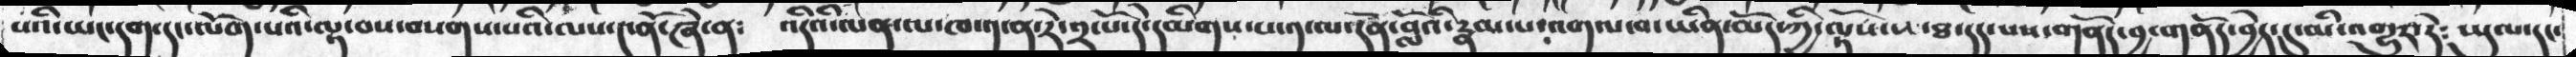པའི་ཡང་དག་དང་ལོག་པའི་ལྟ་བས་བསགས་པའི་ལས་༤ནོ་ཞེ་ན༴   འདིའི་ལན་ལ་ཁ་༡་ན་རེ་༢་པོ་དེ་དམིགས་པ་༡་ལ་དོན་བློའི་རྣམ་པ་འགལ་བ་ཡིན་མོད་ཀྱི་ལྟོས་ས་ཐ་དད་པས་གནོད་བྱ་གནོད་བྱེད་དུ་མི་འགྱུར་ཏེ༴   ཡུལ་དང་
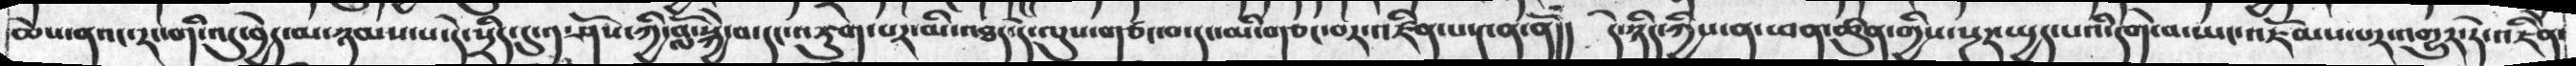ཆེས་ནའང་རང་གི་འདུ་བྱེད་མ་ཉམས་པ་དེ་སྲིད་དུ་༡་ཤོས་ཀྱི་བློ་སྐྱེ་བ་དང་འཇུག་པར་མི་འཐད་དེ་ལུས་གཙང་བ་དང་མི་གཙང་བར་འཛིན་པ་༤ན་ནོ།། དེ་ཉིད་ཀྱིས་ནི་ཕན་ཚུན་གྱིས་སྔར་སྤྱད་པའི་དགེ་བ་ཡང་འཇོམས་པར་འགྱུར་ཏེ་འཇིེན་
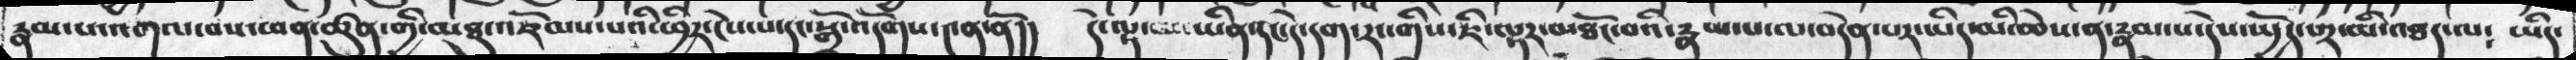རྣམ་པ་འགལ་བས་ཕན་ཚུན་གྱི་མཐུ་འཇོམས་པའི་ཕྱིར་ངེས་པ་དང་སྒྲོ་འདོགས་༤ན་ནོ།།  དེ་ལྟ་མ་ཡིན་དང་དེ་དག་རང་གིས་ཇི་ལྟར་མཐོང་བའི་རྣམ་པ་ལ་བདེན་པར་ཡིད་མི་ཆེས་ན་རྣམ་པ་དེས་སྤྱོད་པར་མི་འཐད་ལ༴  ཡིད་
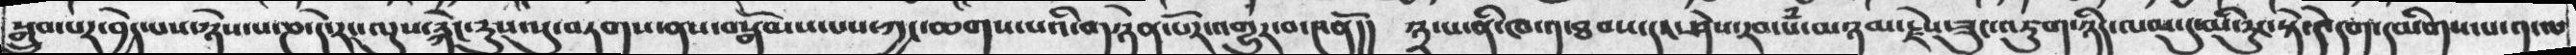སྒྲུབ་པར་བྱེད་པས་ཉེས་པ་ཎ་དེ་རང་ལུས་རྐེང་རུས་སུ་བཏགས་ནས་བསྒོམས་པས་ཀྱང་ཆགས་པའི་གཉེན་པོར་འགྱུར་བ་༤ནོ།། ༣་པ་ནི་ཁ་༡་ཐབས་དང་ཤེས་རབ་སཾ་མཉམ་རྗེས་ཟུང་འཇུག་ཉིད་ལམ་དུ་མི་རུང་སྟེ་དེ་དག་དམིགས་པ་༡་ལ
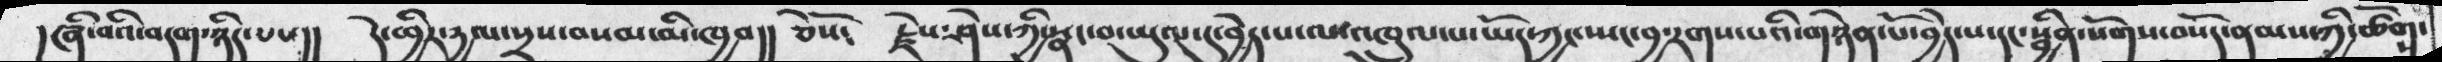།ཞི་བའི་བདག་ཉིད་པས།།  དེ་ཕྱིར་དྱལ་སྲས་བསམ་མི་ཁྱབ།།  ཅེསོ༴   རྗེས་ཤེས་ཀྱི་སྣང་བ་ཡུལ་དུ་བྱེད་པ་ལ་འཁྲུལ་པ་ཡོད་ཀྱང་སྤང་བྱ་རགས་པའི་གཉེན་པོ་བྱེད་པ་དང་སྦྱིན་སོགས་བསོད་ནམས་ཀྱི་ཚོགས་
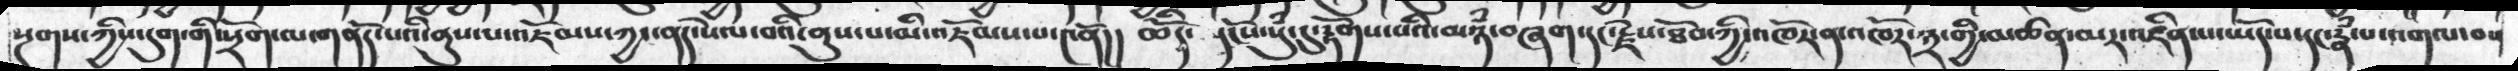སྔགས་ཀྱིས་དུག་གི་སྲོག་ལ་གནོད་པའི་ནུས་པ་འཇོམས་ཀྱང་ནད་སེལ་བའི་ནུས་པ་མི་འཇོམས་པ་༤ནོ།། ཆོིད་ དངོས་སུཾ་དུ་རྟོགས་པའི་མཉཾ་བཞག་དང་རྗེས་ཐོབ་ཀྱི་འཁོར་ན་འཁོར་༣་གྱི་མཚན་མར་འཛིན་པ་ཡོད་པ་དང་རྣཾ་པ་འགལ་བས
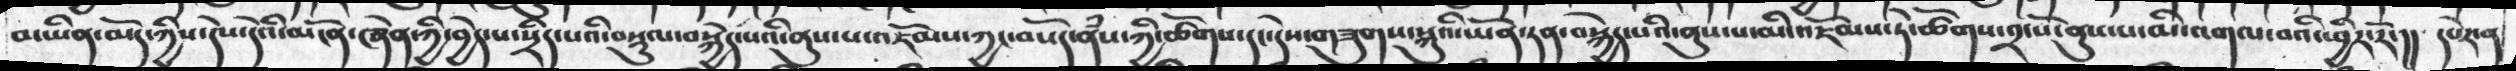བ་ཡིན་མེད་ཀྱིས་དེས་དེའི་མངོན་ཞེན་ཀྱི་བྱེད་པ་སྲིད་པའི་བསྡུལ་བསྐྱེད་པའི་ནུས་པ་འཇོམས་ཀྱང་བསོད་ནཾས་ཀྱི་ཚོགས་དང་དེས་གཟུགས་སྐུའི་ཡོན་ཏན་བསྐྱེད་པའི་ནུས་པ་མི་འཇོམས་ཏེ་ཚོགས་༢་པོ་ནུས་པ་མི་འགལ་བའི་ཕྱིར་རོ་།། དཔེར་ན
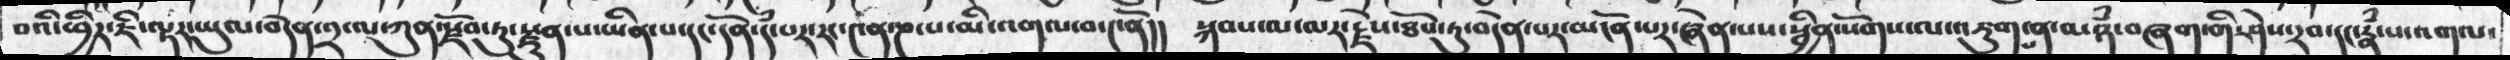བའི་ཕྱིར་ཇི་ལྟར་ཡུལ་བདེན་༢་ལ་ཀུན་རྫོབ་ཏུ་རྫུན་པ་ཡིན་པ་དང་དོན་དཾ་པར་རང་༤ན་ཎ་པ་མི་འགལ་བ་༤ནོ།།  སྐབས་ལ་ལར་རྗེས་ཐོབ་ཏུ་བདེན་པར་མངོན་པར་ཞེན་པས་སྦྱིན་སོགས་ལ་འཇུག་པ་ན་མཉཾ་བཞག་གི་ཤེས་རབ་དང་རྣཾ་པ་འགལ་
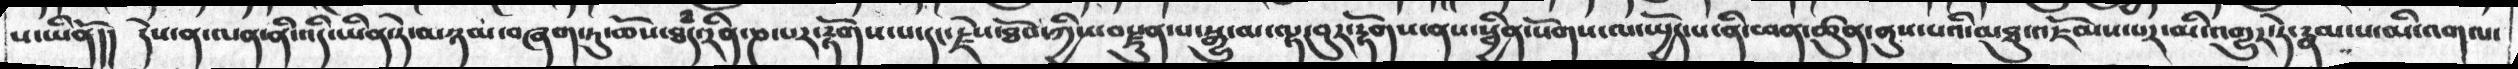པ་ཡིནོ།། དེས་ན་ལན་ནི་འདི་ཡིན་ཏེ་མཉམ་བཞག་ཏུ་ཆོས་ཐཾད་རིན་ཎ་པར་རྟོགས་པ་དང་རྗེས་ཐོབ་ཀྱིས་བརྫུན་པ་སྒྱུ་མ་ལྟ་བུར་རྟོགས་ནས་སྦྱིན་སོགས་ལ་སྤྱོད་པ་ནི་ཕན་ཚུན་ནུས་པའི་མཐུ་འཇོམས་པར་མི་འགྱུར་ཏེ་རྣམ་པ་མི་འགལ་
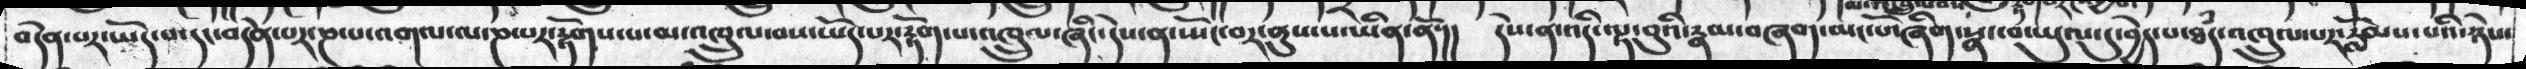བདེན་པར་ཡོད་པ་དང་བདེན་པར་ཎ་པ་འགལ་ལ་ཎ་པར་རྟོགས་པ་མ་འཁྲུལ་བས་ཡོད་པར་རྟོག་པ་འཁྲུལ་ཞིང་དེས་ན་སྤོང་བར་ནུས་པ་ཡིན་ནོ་།།  དེས་ན་འདི་ལྟ་བུའི་རྣམ་བཞག་མང་པོ་ཞིག་སྣང་བ་ཡུལ་དུ་བྱེད་པ་ཐཾད་འཁྲུལ་པར་རློམས་པའི་ཉེས་
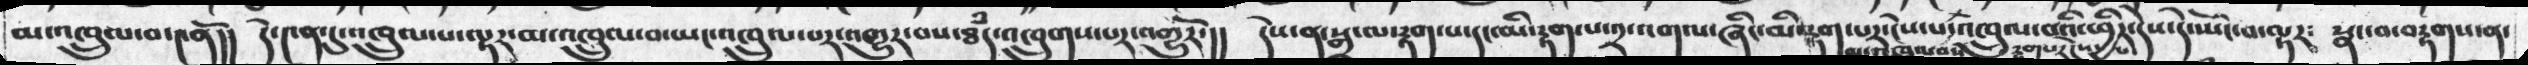མ་འཁྲུལ་བ་༤ནོ།།  དེ་༤ན་དུ་འཁྲུལ་པ་ལྟར་མ་འཁྲུལ་བ་ཡང་འཁྲུལ་པར་འགྱུར་བས་ཐཾད་འཁྲུགས་པར་འགྱུརོ་།།  དེས་ན་སྒྲ་ལ་རྟག་པ་དང་མི་རྟག་པ་༢་འགལ་ཞིང་མི་རྟག་པར་ངེས་པ་འཁྲུལ་བའི་ཕྱིར་དེས་དེ་ཡོང་བ་ལྟར༴  སྣང་བ་བརྟགས་ན་
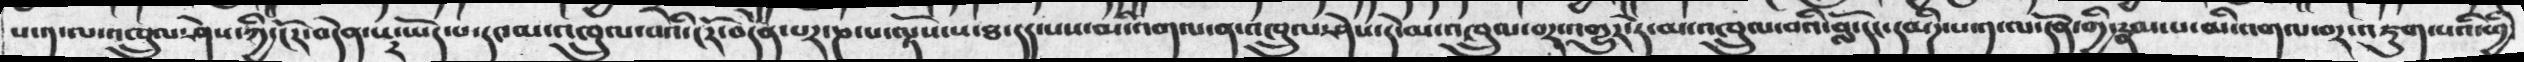པ་༡་ལ་འཁྲུལ་ཤེས་ཀྱི་ངོར་བདེན་པར་ཡོད་པ་དང་མ་འཁྲུལ་བའི་ངོར་བདེན་པར་ཎ་པ་ལྟོས་པ་ཐ་དད་པས་མི་འགལ་ན་འཁྲུལ་ཤེས་དེ་མ་འཁྲུལ་བར་འགྱུར་རོ་མ་འཁྲུལ་བའི་བློ་དང་དམིཌ་པ་༡་ལ་དོན་གྱི་རྣམ་པ་མི་འགལ་བར་འཇུག་པའི་ཕྱི་
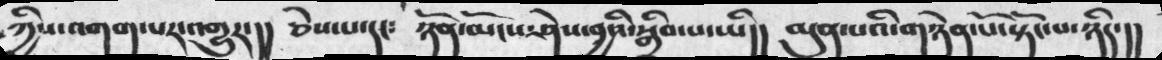ཀྱིས་འགག་པར་འགྱུར་།།   ཅེས་པ་དང༴  ཉོན་མོངས་ཤེས་བྱའི་སྒྲུབ་པ་ཡི།།  མུན་པའི་གཉེན་པོ་སྟོང་པ་ཉིད་།།
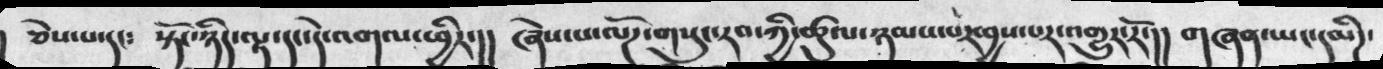ཅེས་པ་དང༴   སྟོང་ཉིད་ལྟ་དང་དེ་འགལ་ཕྱིར་།།   ཞེས་པ་ལོཌ་གསུང་རབ་ཀྱི་ཚུལ་ཉམས་པར་བྱས་པར་འགྱུར་རོ་།།    གཞན་ཡང་དམིཌ་
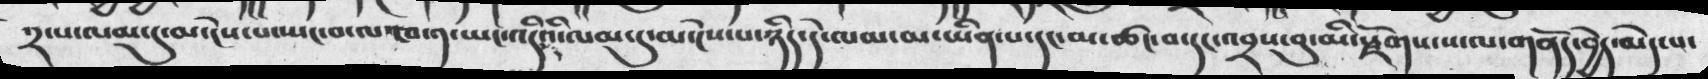༢་པ་ལམ་དུ་མ་ངེས་པ་སྤང་བ་ལ་ཁ་༡་ཡང་འདིའི་ལམ་དུ་མ་ངེས་པ་ཉིད་དེ་ལམ་མ་ཡིན་པ་དང་མ་ཚང་བ་དང་འབྲས་བུ་མི་རྗོགས་པ་ལ་གནོད་བྱེད་མེད་པ་
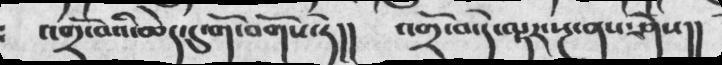འགྲོ་བའི་ཆེད་དུ་གོ་བགོས་ཏེ།།   འགྲོ་བ་དེ་ལྟར་སྔ་ནས་ཤེས།།
